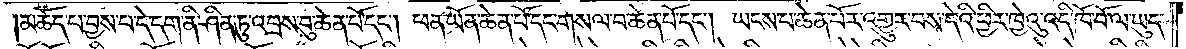མཆོད་པ་བྱས་པ་དེ་དག་ནི་ཤིན་ཏུ་འབྲས་བུ་ཆེན་པོ་དང༌། ཕན་ཡོན་ཆེན་པོ་དང་གསལ་བ་ཆེན་པོ་དང༌། ཡངས་པ་ཆེན་པོར་འགྱུར་བས་དེའི་ཕྱིར་ཁྱེའུ་འདི་ཁོ་བོ་ལ་ཡུད་
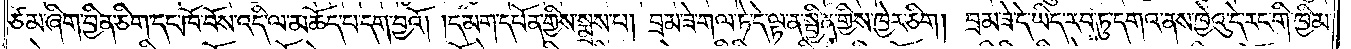ཙམ་ཞིག་བྱིན་ཅིག་དང་ཁོ་བོས་འདི་ལ་མཆོད་པ་དག་བྱའོ། །དམག་དཔོན་གྱིས་སྨྲས་པ། བྲམ་ཟེ་གལ་ཏེ་དེ་ལྟ་ན་སྦྱིན་གྱིས་ཁྱེར་ཅིག། བྲམ་ཟེ་དེ་ཡིད་རབ་ཏུ་དགའ་ནས་ཁྱེའུ་དེ་རང་གི་ཁྱིམ་
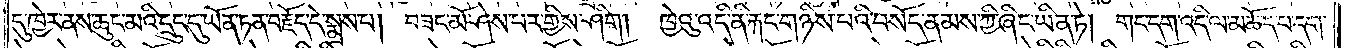དུ་ཁྱེར་ནས་ཆུང་མའི་དྲུང་དུ་ཡོན་ཏན་བརྗོད་དེ་སྨྲས་པ། བཟང་མོ་ཤེས་པར་གྱིས་ཤིག། ཁྱེའུ་འདི་ནི་རྐང་གཉིས་པའི་བསོད་ནམས་ཀྱི་ཞིང་ཡིན་ཏེ། གང་དག་འདི་ལ་མཆོད་པ་དག་
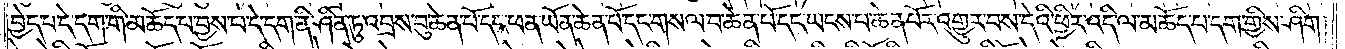བྱེད་པ་དེ་དག་གི་མཆོད་པ་བྱས་པ་དེ་དག་ནི་ཤིན་ཏུ་འབྲས་བུ་ཆེན་པོ་དང་ཕན་ཡོན་ཆེན་པོ་དང་གསལ་བ་ཆེན་པོ་དང་ཡངས་པ་ཆེན་པོར་འགྱུར་བས་དེའི་ཕྱིར་འདི་ལ་མཆོད་པ་དག་གྱིས་ཤིག།
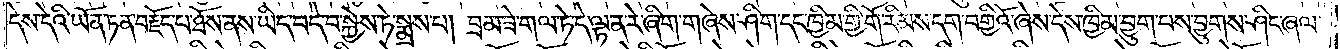དེས་དེའི་ཡོན་ཏན་བརྗོད་པ་ཐོས་ནས་ཡིད་བདེ་བ་སྐྱེས་ཏེ་སྨྲས་པ། བྲམ་ཟེ་གལ་ཏེ་དེ་ལྟ་ན་རེ་ཞིག་གཞེས་ཤིག་དང་ཁྱིམ་གྱི་གོ་རིམས་དག་བགྱིའོ་ཞེས་དེས་ཁྱིམ་བྱུག་པས་བྱུགས་ཤིང་ཞལ་
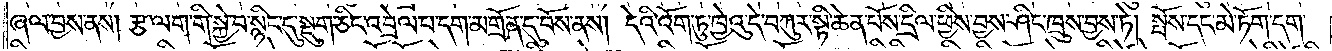ཞལ་བྱས་ནས། རྩ་ལག་གི་སྐྱེ་བ་སྙིང་དུ་སྡུག་ཅིང་འབྲེལ་པ་དག་མགྲོན་དུ་བོས་ནས། དེའི་འོག་ཏུ་ཁྱེའུ་དེ་བཀུར་སྟི་ཆེན་པོས་དྲིལ་ཕྱིས་བྱས་ཤིང་ཁྲུས་བྱས་ཏེ། སྤོས་དང་མེ་ཏོག་དག་
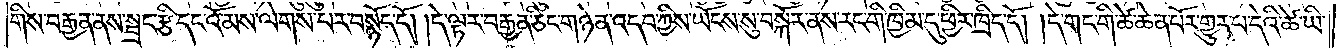གིས་བརྒྱན་ནས་སྦྲང་རྩི་དང་འོ་མས་ལེགས་པར་བསྙོད་དོ། །དེ་ལྟར་བརྒྱན་ཅིང་གཉེན་འདབ་ཀྱིས་ཡོངས་སུ་བསྐོར་ནས་རང་གི་ཁྱིམ་དུ་ཕྱིར་ཁྲིད་དོ། །དེ་གང་གི་ཚེ་ཆེན་པོར་གྱུར་པ་དེའི་ཚེ་ཡི་
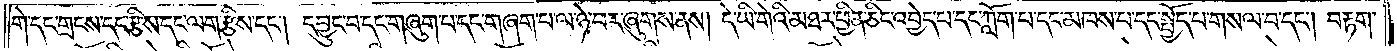གེ་དང་གྲངས་དང་རྩིས་དང་ལག་རྩིས་དང༌། དབྱུང་བ་དང་གཞུག་པ་དང་གཞག་པ་ལ་ཉེ་བར་ཞུགས་ནས། དེ་ཡི་གེའི་མཐར་ཕྱིན་ཅིང་འབྱེད་པ་དང་ཀློག་པ་དང་མཁས་པ་དང་སྤྱོད་པ་གསལ་བ་དང༌། བརྟག་
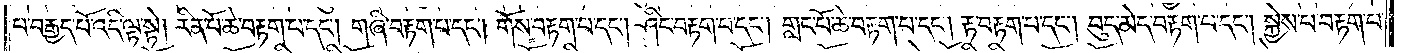པ་བརྒྱད་པོ་འདི་ལྟ་སྟེ། རིན་པོ་ཆེ་བརྟག་པ་དང༌། གཞི་བརྟག་པ་དང༌། གོས་བརྟག་པ་དང༌། ཤིང་བརྟག་པ་དང༌། གླང་པོ་ཆེ་བརྟག་པ་དང༌། རྟ་བརྟག་པ་དང༌། བུད་མེད་བརྟག་པ་དང༌། སྐྱེས་པ་བརྟག་པ་
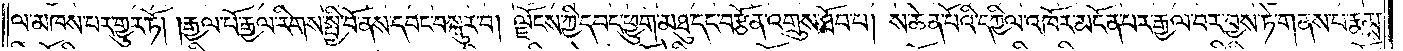ལ་མཁས་པར་གྱུར་ཏོ། །རྒྱལ་པོ་རྒྱལ་རིགས་སྤྱི་བོ་ནས་དབང་བསྐུར་བ། ལྗོངས་ཀྱི་དབང་ཕྱུག་མཐུ་དང་བརྩོན་འགྲུས་ཐོབ་པ། ས་ཆེན་པོའི་དཀྱིལ་འཁོར་མངོན་པར་རྒྱལ་བར་བྱས་ཏེ་གནས་པ་རྣམས་
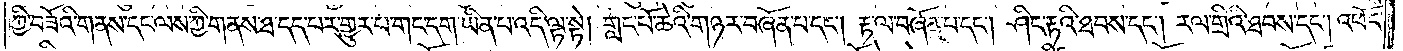ཀྱི་བཟོའི་གནས་དང་ལས་ཀྱི་གནས་ཐ་དད་པར་གྱུར་པ་གང་དག་ཡིན་པ་འདི་ལྟ་སྟེ། གླང་པོ་ཆེའི་གཉར་བཞོན་པ་དང༌། རྟ་ལ་བཞོན་པ་དང༌། ཤིང་རྟའི་ཐབས་དང༌། རལ་གྲིའི་ཐབས་དང༌། འཕོང་
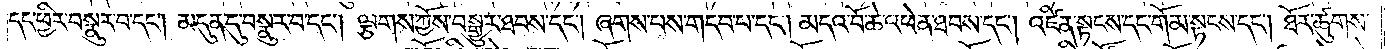དང་ཕྱིར་བསྣུར་བ་དང༌། མདུན་དུ་བསྣུར་བ་དང༌། ལྕགས་ཀྱོས་བསྒྱུར་ཐབས་དང༌། ཞགས་པས་གདབ་པ་དང༌། མདའ་བོ་ཆེ་འཕེན་ཐབས་དང༌། འཛིན་སྟངས་དང་གོམ་སྟངས་དང༌། ཐོར་ཚུགས་
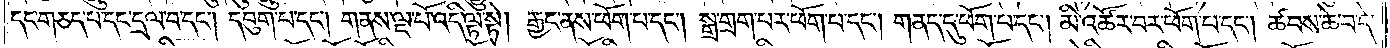དང་གཅད་པ་དང་དྲལ་བ་དང༌། དབུག་པ་དང༌། གནས་ལྔ་པོ་འདི་ལྟ་སྟེ། རྒྱང་ནས་ཕོག་པ་དང༌། སྒྲ་གྲག་པར་ཕོག་པ་དང༌། གནད་དུ་ཕོག་པ་དང༌། མི་འཚོར་བར་ཕོག་པ་དང༌། ཚབས་ཆེ་བ་དེ་
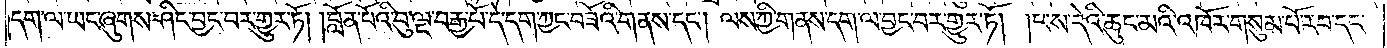དག་ལ་ཡང་ཞུགས་ཤིང་བྱང་བར་གྱུར་ཏོ། །བློན་པོའི་བུ་ལྔ་བརྒྱ་པོ་དེ་དག་ཀྱང་བཟོའི་གནས་དང༌། ལས་ཀྱི་གནས་དག་ལ་བྱང་བར་གྱུར་ཏོ། །ཕས་དེའི་ཆུང་མའི་འཁོར་གསུམ་པོ་རབ་དང་
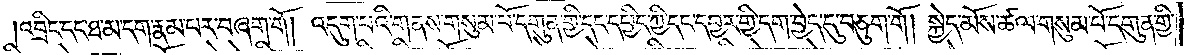།འབྲིང་དང་ཐ་མ་དག་རྣམ་པར་བཞག་གོ། འདུག་པའི་གནས་གསུམ་པོ་དགུན་གྱི་དང་དཔྱིད་ཀྱི་དང་དབྱར་གྱི་དག་བྱེད་དུ་བཅུག་གོ། སྐྱེད་མོས་ཚལ་གསུམ་པོ་དགུན་གྱི་
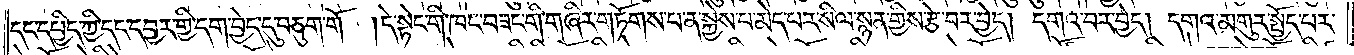དང་དཔྱིད་ཀྱི་དང་དབྱར་གྱི་དག་བྱེད་དུ་བཅུག་གོ །དེ་སྟེང་གི་ཁང་བཟང་གི་གཞིར་གཏོགས་པ་ན་སྐྱེས་པ་མེད་པར་སིལ་སྙན་གྱིས་རྩེ་བར་བྱེད། དགའ་བར་བྱེད། དགའ་མགུར་སྤྱོད་པར་
